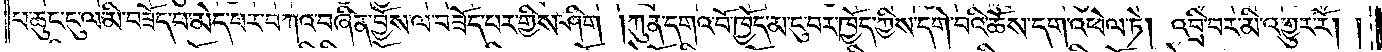པ་ཆུང་ངུ་ལ་མི་བཟོད་པ་མེད་པར་བཀའ་བཞིན་བྱོས་ལ་བཟོད་པར་གྱིས་ཤིག །ཀུན་དགའ་བོ་ཁྱོད་མ་ངུ་བར་ཁྱོད་ཀྱིས་དགེ་བའི་ཆོས་དག་འཕེལ་ཏེ། འབྲི་བར་མི་འགྱུར་རོ། །
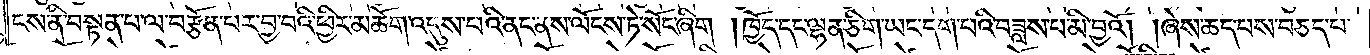ངས་ནི་བསྟན་པ་ལ་བརྩོན་པར་བྱ་བའི་ཕྱིར་མཆོག་འདུས་པའི་ནང་ནས་ལོངས་ཏེ་སོང་ཞིག །ཁྱོད་དང་ལྷན་ཅིག་ཡང་དག་པའི་བཟླས་པ་མི་བྱའོ། །ཞེས་ཆད་པས་བཅད་པ་
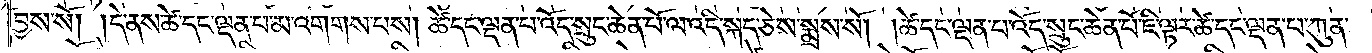བྱས་སོ། །དེ་ནས་ཚེ་དང་ལྡན་པ་མ་འགགས་པས། ཚེ་དང་ལྡན་པ་འོད་སྲུང་ཆེན་པོ་ལ་འདི་སྐད་ཅེས་སྨྲས་སོ། །ཚེ་དང་ལྡན་པ་འོད་སྲུང་ཆེན་པོ་ཇི་ལྟར་ཚེ་དང་ལྡན་པ་ཀུན་
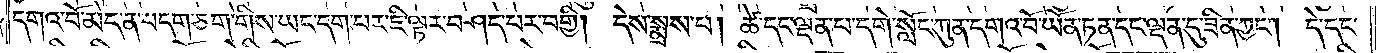དགའ་བོ་མེད་ན་བདག་ཅག་གིས་ཡང་དག་པར་ཇི་ལྟར་བཤད་པར་བགྱི། དེས་སྨྲས་པ། ཚེ་དང་ལྡན་པ་དགེ་སློང་ཀུན་དགའ་བོ་ཡོན་ཏན་དང་ལྡན་དུ་ཟིན་ཀྱང༌། དེ་དང་
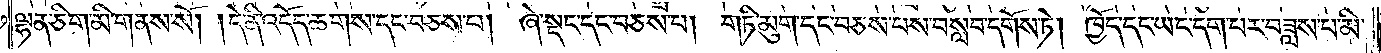ལྷན་ཅིག་མི་གནས་སོ། །དེ་ནི་འདོད་ཆགས་དང་བཅས་པ། ཞེ་སྡང་དང་བཅས་པ། གཏི་མུག་དང་བཅས་པས་བསླབ་དགོས་ཏེ། ཁྱོད་དང་ཡང་དག་པར་བཟླས་པ་མི་
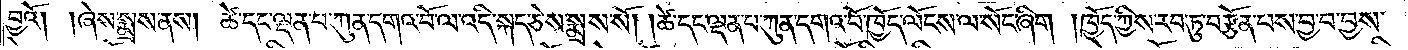བྱའོ། །ཞེས་སྨྲས་ནས། ཚེ་དང་ལྡན་པ་ཀུན་དགའ་བོ་ལ་འདི་སྐད་ཅེས་སྨྲས་སོ། །ཚེ་དང་ལྡན་པ་ཀུན་དགའ་བོ་ཁྱོད་ལོངས་ལ་སོང་ཞིག །ཁྱོད་ཀྱིས་རབ་ཏུ་བརྩོན་པས་བྱ་བ་བྱས་
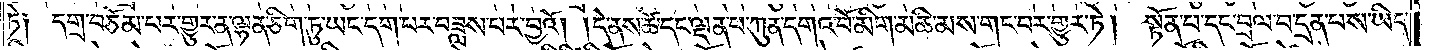ཏེ༑ དགྲ་བཅོམ་པར་གྱུར་ན་ལྷན་ཅིག་ཏུ་ཡང་དག་པར་བཟླས་པར་བྱའོ། །དེ་ནས་ཚེ་དང་ལྡན་པ་ཀུན་དགའ་བོ་མིག་མཆི་མས་གང་བར་གྱུར་ཏེ། སྟོན་པ་དང་བྲལ་བ་དྲན་པས་ཡིད་
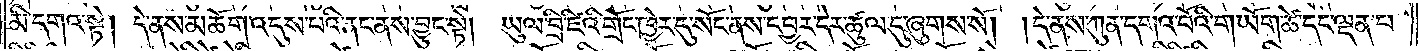མི་དགའ་སྟེ། དེ་ནས་མཆོག་འདུས་པའི་ནང་ནས་བྱུང་སྟེ། ཡུལ་བྲི་ཛིའི་གྲོང་ཁྱེར་དུ་སོང་ནས་དབྱར་དེར་ཚུལ་དུ་ཞུགས་སོ། །དེ་ནས་ཀུན་དགའ་བོའི་གཡོག་ཚེ་དང་ལྡན་པ་
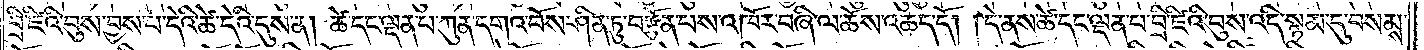བྲི་ཛིའི་བུས་བྱས་པ་དེའི་ཚེ་དེའི་དུས་ན། ཚེ་དང་ལྡན་པ་ཀུན་དགའ་བོས་ཤིན་ཏུ་བརྩོན་པས་འཁོར་བཞི་ལ་ཆོས་འཆད་དོ། །དེ་ནས་ཚེ་དང་ལྡན་པ་བྲི་ཛིའི་བུས་འདི་སྙམ་དུ་བསམས་
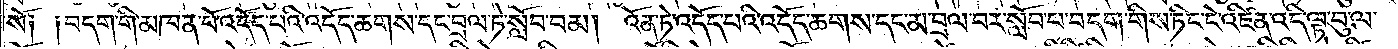སོ༑ ༑བདག་གི་མཁན་པོ་འདོད་པའི་འདོད་ཆགས་དང་བྲལ་ཏེ་སློབ་བམ། འོན་ཏེ་འདོད་པའི་འདོད་ཆགས་དང་མ་བྲལ་བར་སློབ་པ་བདག་གིས་ཏིང་ངེ་འཛིན་འདི་ལྟ་བུ་ལ་
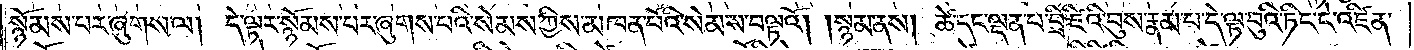སྙོམས་པར་ཞུགས་ལ། དེ་ལྟར་སྙོམས་པར་ཞུགས་པའི་སེམས་ཀྱིས་མཁན་པོའི་སེམས་བལྟའོ། །སྙམ་ནས། ཚེ་དང་ལྡན་པ་བྲི་ཛིའི་བུས་རྣམ་པ་དེ་ལྟ་བུའི་ཏིང་ངེ་འཛིན་
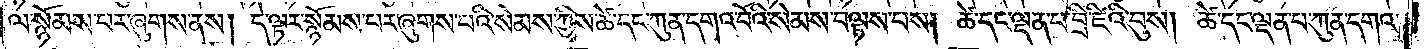ལ་སྙོམས་པར་ཞུགས་ནས། དེ་ལྟར་སྙོམས་པར་ཞུགས་པའི་སེམས་ཀྱིས་ཚེ་དང་ཀུན་དགའ་བོའི་སེམས་བལྟས་པས། ཚེ་དང་ལྡན་པ་བྲི་ཛིའི་བུས། ཚེ་དང་ལྡན་པ་ཀུན་དགའ་
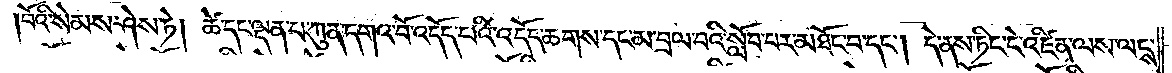།བོའི་སེམས་ཤེས་ཏེ། ཚེ་དང་ལྡན་པ་ཀུན་དགའ་བོ་འདོད་པའི་འདོད་ཆགས་དང་མ་བྲལ་བའི་སློབ་པར་མཐོང་བ་དང༌། དེ་ནས་ཏིང་ངེ་འཛིན་ལས་ལངས་
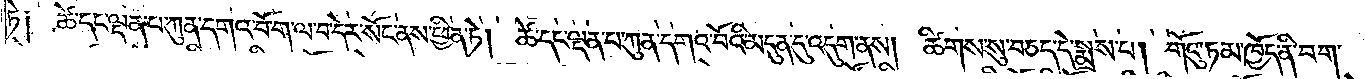ཏེ༑ ཚེ་དང་ལྡན་པ་ཀུན་དགའ་བོ་ག་ལ་བ་དེར་སོང་ནས་ཕྱིན་ཏེ། ཚེ་དང་ལྡན་པ་ཀུན་དགའ་བོའི་མདུན་དུ་འདུག་ནས། ཚིགས་སུ་བཅད་དེ་སྨྲས་པ། གོའུ་ཏམ་ཁྱོད་ནི་བག་
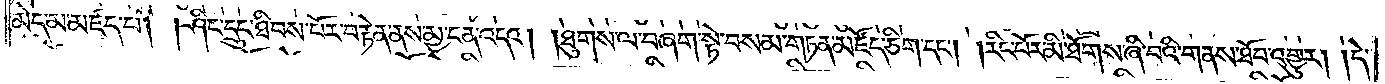མེད་མ་མཛད་པ། །ཤིང་དྲུང་ཐིབས་པོར་བརྟེན་ནས་མྱ་ངན་འདའ། །ཐུགས་ལ་བཞག་སྟེ་བསམ་གཏན་མཛོད་ཅིག་དང༌། །རིང་པོར་མི་ཐོགས་ཞི་བའི་གནས་ཐོབ་འགྱུར། །དེ་
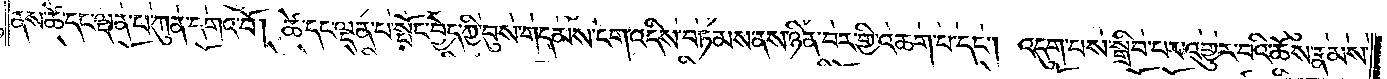ནས་ཚེ་དང་ལྡན་པ་ཀུན་དགའ་བོ། ཚེ་དང་ལྡན་པ་སྤོང་བྱེད་ཀྱི་བུས་གདམས་ངག་འདིས་བཏམས་ནས་ཉིན་བར་གྱི་འཆག་པ་དང༌། འདུག་པས་སྒྲིབ་པར་འགྱུར་བའི་ཆོས་རྣམས་
